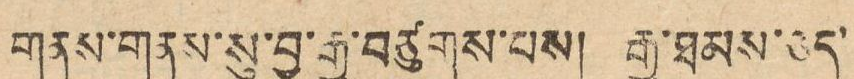གནས་གནས་སུ་བྱ་རྒྱ་བཙུགས་པས། རྒྱ་ཐམས་ཅད་
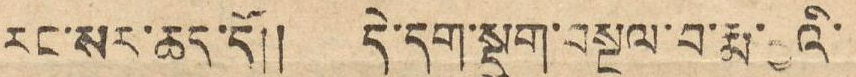རང་སར་ཆད་དོ།། དེ་དག་སྡུག་བསྔལ་བ་རྨ་བྱའི་
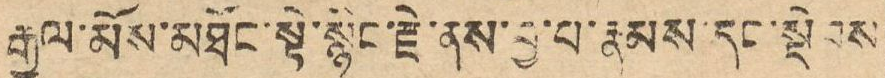རྒྱལ་མོས་མཐོང་སྟེ་སྙིང་རྗེ་ནས་བྱ་བ་རྣམས་དང་སྡེབས
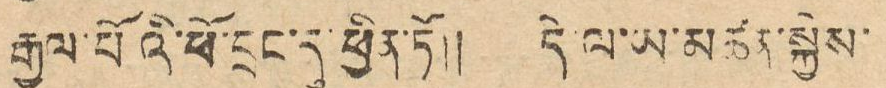རྒྱལ་པོའི་ཕོ་བྲང་དུ་ཕྱིན་ཏོ།། དེ་ལ་ཡ་མཚན་སྐྱེས་
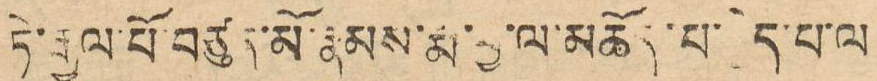ཏེ་རྒྱལ་པོ་བཙུན་མོ་རྣམས་རྨ་བྱ་ལ་མཆོད་པ་བྱེད་པ་ལ
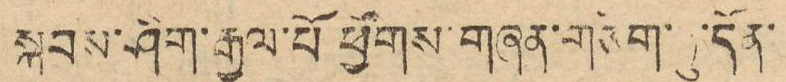སྐབས་ཤིག་རྒྱལ་པོ་ཕྱོགས་གཞན་གཅིག་ཏུ་དོན་
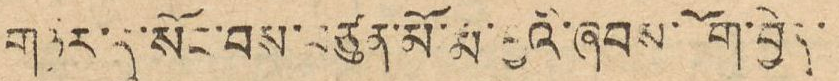གཉེར་དུ་སོང་བས་བཙུན་མོ་རྨ་བྱའི་ཞབས་ཆོག་བྱེད་
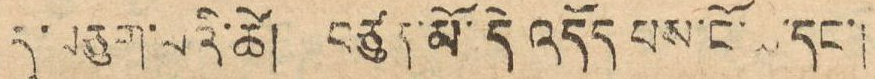དུ་བཅུག་པས་ཚེ། བཙུན་མོ་དེ་འདོད་པས་ངོ་ཚ་དང་།
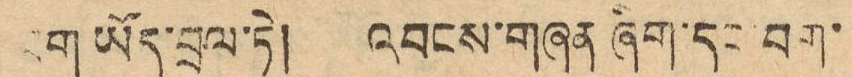ཟག ཡོད་བྲལ་ཏེ། འབངས་གཞན ཞིག་དང་བག་
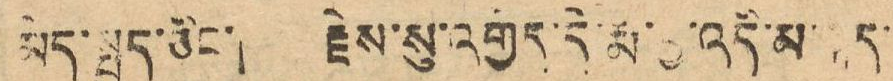མེད་སྤྱད་ཅིང་། རྗེས་སུ་འགྱོད་དེ་རྨ་བྱ་འདི་མ་སྐད་
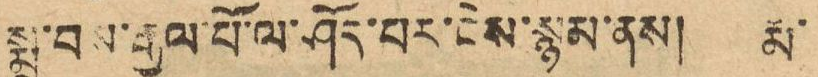སྨྲ་བས་རྒྱལ་པོ་ལ་ཤོད་པར་ངེས་སྙམ་ནས། རྨ་
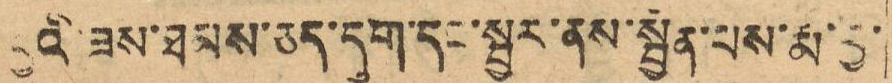བྱའི་ཟས་ཐམས་ཅད་དུག་དང་སྦྱར་ནས་སྦྱིན་པས་རྨ་བྱ་
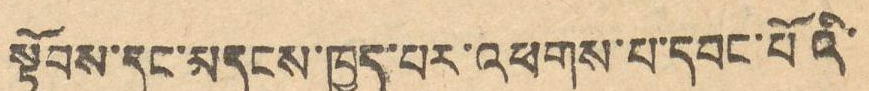སྟོབས་དང་མདངས་ཁྱད་པར་འཕགས་པ་དབང་པོའི་
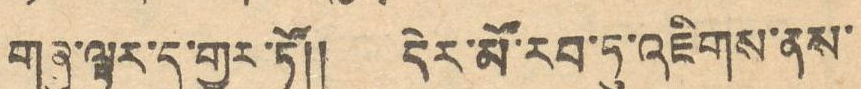གཞུ་ལྟར་དུ་གྱུར་ཏོ།། དེར་མོ་རབ་ཏུ་འཇིགས་ནས་
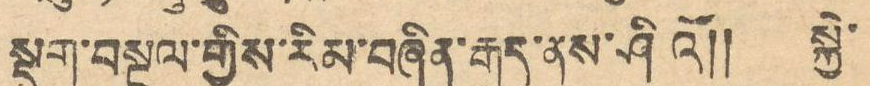སྡུག་བསྔལ་གྱིས་རིམ་བཞིན་རྒུད་ནས་ཤིའོ།། སྐྱེ
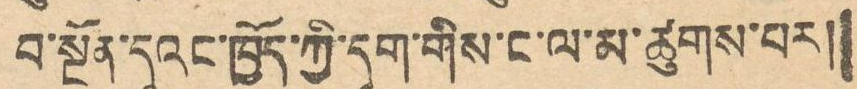བ་སྔོན་དུའང་ཁྱོད་ཀྱི་དུག་གིས་ང་ལ་མ་ཚུགས་པར།
